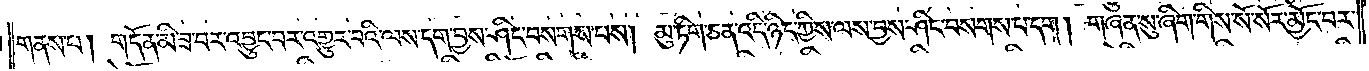གནས་པ། གདོན་མི་ཟ་བར་འབྱུང་བར་འགྱུར་བའི་ལས་དག་བྱས་ཤིང་བསགས་པས། མུ་ཏིག་ཅན་འདི་ཉིད་ཀྱིས་ལས་བྱས་ཤིང་བསགས་པ་དག །གཞན་སུ་ཞིག་གིས་སོ་སོར་མྱོང་བར་
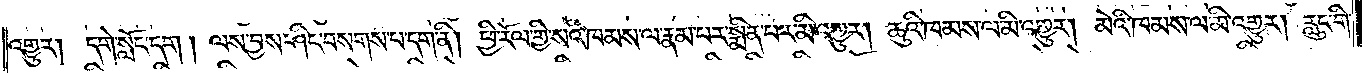འགྱུར། དགེ་སློང་དག །ལས་བྱས་ཤིང་བསགས་པ་དག་ནི། ཕྱི་རོལ་གྱི་སའི་ཁམས་ལ་རྣམ་པར་སྨིན་པར་མི་འགྱུར། ཆུའི་ཁམས་ལ་མི་འགྱུར། མེའི་ཁམས་ལ་མི་འགྱུར། རླུང་གི་
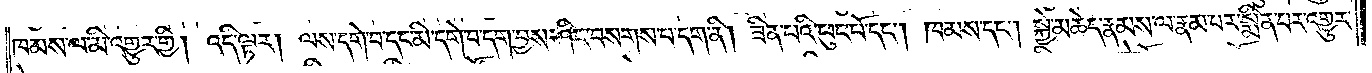ཁམས་ལ་མི་འགྱུར་གྱི། འདི་ལྟར། ལས་དགེ་བ་དང་མི་དགེ་བ་དག་བྱས་ཤིང་བསགས་པ་དག་ནི། ཟིན་པའི་ཕུང་པོ་དང༌། ཁམས་དང༌། སྐྱེ་མཆེད་རྣམས་ལ་རྣམ་པར་སྨིན་པར་འགྱུར་
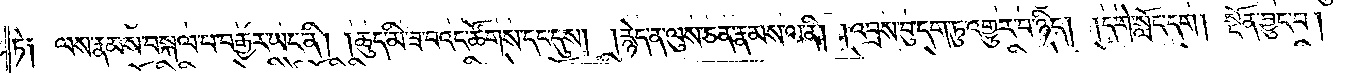ཏེ། ལས་རྣམས་བསྐལ་པ་བརྒྱར་ཡང་ནི། །ཆུད་མི་ཟ་བའང་ཚོགས་དང་དུས། །རྙེད་ན་ལུས་ཅན་རྣམས་ལ་ནི། །འབྲས་བུ་དག་ཏུ་འགྱུར་བ་ཉིད། །དགེ་སློང་དག །སྔོན་བྱུང་བ།
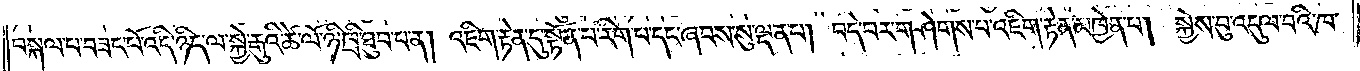བསྐལ་པ་བཟང་པོ་འདི་ཉིད་ལ་སྐྱེ་རྒུའི་ཚེ་ལོ་ཉི་ཁྲི་ཐུབ་པ་ན། འཇིག་རྟེན་དུ་སྟོན་པ་རིག་པ་དང་ཞབས་སུ་ལྡན་པ། བདེ་བར་གཤེགས་པ་འཇིག་རྟེན་མཁྱེན་པ། སྐྱེས་བུ་འདུལ་བའི་ཁ་
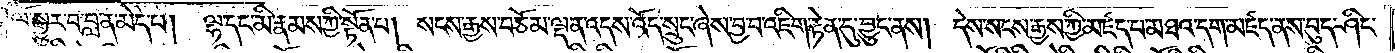ལོ་སྒྱུར་བ་བླ་ན་མེད་པ། ལྷ་དང་མི་རྣམས་ཀྱི་སྟོན་པ། སངས་རྒྱས་བཅོམ་ལྡན་འདས་འོད་སྲུང་ཞེས་བྱ་བ་འཇིག་རྟེན་དུ་བྱུང་ནས། དེས་སངས་རྒྱས་ཀྱི་མཛད་པ་མཐའ་དག་མཛད་ནས་བུད་ཤིང་
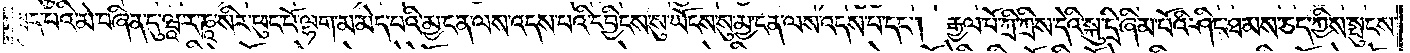ཟད་པའི་མེ་བཞིན་དུ་ཝཱ་ར་ཎཱ་སིར་ཕུང་པོ་ལྷག་མ་མེད་པའི་མྱ་ངན་ལས་འདས་པའི་དབྱིངས་སུ་ཡོངས་སུ་མྱ་ངན་ལས་འདས་པ་དང༌། རྒྱལ་པོ་ཀྲི་ཀྲིས་དེའི་སྐུ་དྲི་ཞིམ་པོའི་ཤིང་ཐམས་ཅད་ཀྱིས་སྤུངས་
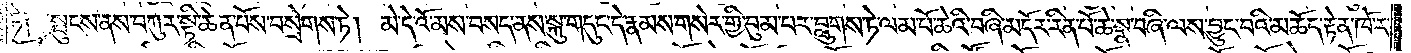ཏེ། སྤུངས་ནས་བཀུར་སྟི་ཆེན་པོས་བསྲེགས་ཏེ། མེ་དེ་འོ་མས་བསད་ནས་སྐུ་གདུང་དེ་རྣམས་གསེར་གྱི་བུམ་པར་བླུགས་ཏེ་ལམ་པོ་ཆེའི་བཞི་མདོར་རིན་པོ་ཆེ་སྣ་བཞི་ལས་བྱུང་བའི་མཆོད་རྟེན་ཁོ་ར་
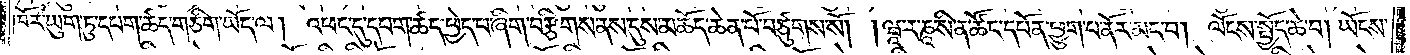ཁོར་ཡུག་ཏུ་དཔག་ཚད་གཅིག་ཡོད་ལ། འཕང་དུ་དཔག་ཚད་ཕྱེད་པ་ཞིག་བརྩིགས་ནས་དུས་མཆོད་ཆེན་པོ་བཙུགས་སོ། །ཝཱ་ར་ཎཱ་སི་ན་ཚོང་དཔོན་ཕྱུག་པ་ནོར་མང་བ། ལོངས་སྤྱོད་ཆེ་བ། ཡོངས་
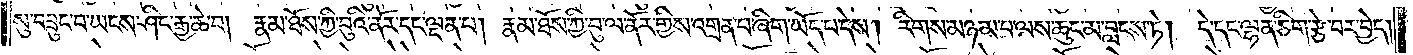སུ་བཟུང་བ་ཡངས་ཤིང་རྒྱ་ཆེ་བ། རྣམ་ཐོས་ཀྱི་བུའི་ནོར་དང་ལྡན་པ། རྣམ་ཐོས་ཀྱི་བུ་ལ་ནོར་གྱིས་འགྲན་བ་ཞིག་ཡོད་པ་དེས། རིགས་མཉམ་པ་ལས་ཆུང་མ་བླངས་ཏེ། དེ་དང་ལྷན་ཅིག་རྩེ་བར་བྱེད།
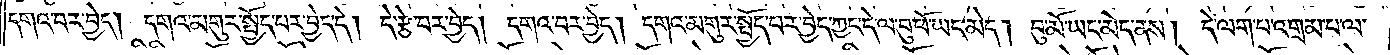དགའ་བར་བྱེད། དགའ་མགུར་སྤྱོད་པར་བྱེད་དེ། དེ་རྩེ་བར་བྱེད། དགའ་བར་བྱེད། དགའ་མགུར་སྤྱོད་པར་བྱེད་ཀྱང་དེ་ལ་བུ་ཕོ་ཡང་མེད། བུ་མོ་ཡང་མེད་ནས། དེ་ལག་པ་འགྲམ་པ་ལ་
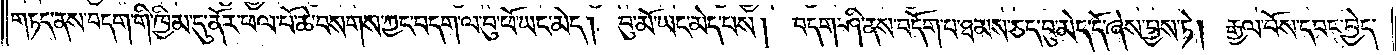གཏད་ནས་བདག་གི་ཁྱིམ་དུ་ནོར་ཕལ་པོ་ཆེ་བསགས་ཀྱང་བདག་ལ་བུ་ཕོ་ཡང་མེད། བུ་མོ་ཡང་མེད་པས། བདག་ཤི་ནས་བདོག་པ་ཐམས་ཅད་བུ་མེད་དོ་ཞེས་བྱས་ཏེ། རྒྱལ་པོས་དབང་བྱེད་
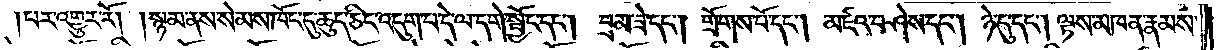།པར་འགྱུར་རོ། །སྙམ་ནས་སེམས་ཁོང་དུ་ཆུད་ཅིང་འདུག་པ་དེ་ལ་དགེ་སྦྱོང་དང༌། བྲམ་ཟེ་དང༌། གྲོགས་པོ་དང༌། མཛའ་བཤེས་དང༌། ཉེ་དུ་དང༌། ལྟས་མཁན་རྣམས་
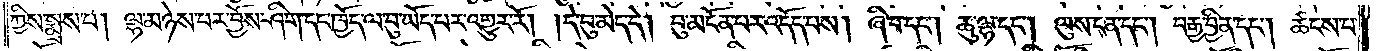ཀྱིས་སྨྲས་པ། ལྷ་མཉེས་པར་བྱོས་ཤིག་དང་ཁྱོད་ལ་བུ་ཡོད་པར་འགྱུར་རོ། །དེ་བུ་མེད་དེ། བུ་མངོན་པར་འདོད་པས། ཞི་བ་དང༌། ཆུ་ལྷ་དང༌། ལུས་ངན་དང༌། བརྒྱ་བྱིན་དང༌། ཚངས་པ་
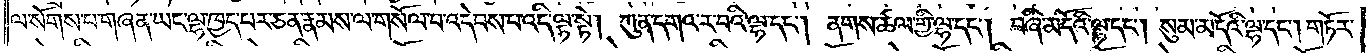ལ་སོགས་པ་གཞན་ཡང་ལྷ་ཁྱད་པར་ཅན་རྣམས་ལ་གསོལ་བ་འདེབས་པ་འདི་ལྟ་སྟེ། ཀུན་དགའ་ར་བའི་ལྷ་དང༌། ནགས་ཚལ་གྱི་ལྷ་དང༌། བཞི་མདོའི་ལྷ་དང༌། སུམ་མདོའི་ལྷ་དང༌། གཏོར་
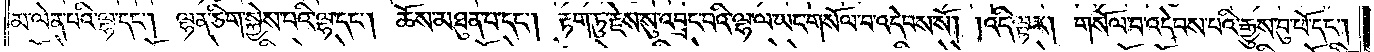མ་ལེན་པའི་ལྷ་དང༌། ལྷན་ཅིག་སྐྱེས་པའི་ལྷ་དང༌། ཆོས་མཐུན་པ་དང༌། རྟག་ཏུ་རྗེས་སུ་འབྲང་བའི་ལྷ་ལ་ཡང་གསོལ་བ་འདེབས་སོ། །འདི་ལྟར། གསོལ་བ་འདེབས་པའི་རྒྱུས་བུ་ཕོ་དང༌།
